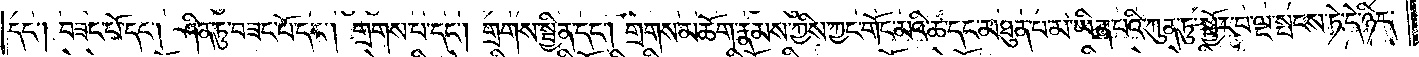དང༌། བཟང་པོ་དང༌། ཤིན་ཏུ་བཟང་པོ་དང༌། གྲགས་པ་དང༌། གྲགས་སྦྱིན་དང༌། གྲགས་མཆོག་རྣམས་ཀྱིས་ཀྱང་གོང་མའི་ཆ་དང་མཐུན་པ་མ་ཡིན་པའི་ཀུན་ཏུ་སྦྱོར་བ་ལྔ་སྤངས་ཏེ་དེ་ཉིད་
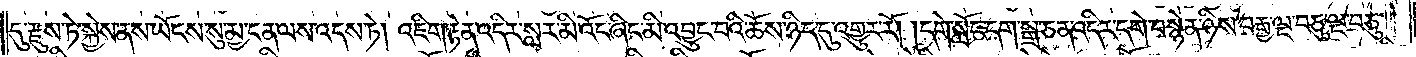དུ་རྫུས་ཏེ་སྐྱེས་ནས་ཡོངས་སུ་མྱ་ངན་ལས་འདས་ཏེ། འཇིག་རྟེན་འདིར་སླར་མི་འོང་ཞིང་མི་འབྱུང་བའི་ཆོས་ཉིད་དུ་འགྱུར་རོ། །དགེ་སློང་དག་སྒྲ་ཅན་འདིར་དགེ་བསྙེན་ཉིས་བརྒྱ་ལྔ་བཅུ་ལྔ་བཅུ་
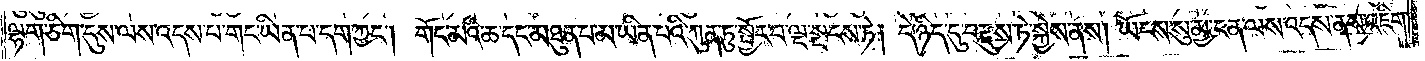ལྷག་ཅིག་དུས་ལས་འདས་པ་གང་ཡིན་པ་དག་ཀྱང༌། གོང་མའི་ཆ་དང་མཐུན་པ་མ་ཡིན་པའི་ཀུན་ཏུ་སྦྱོར་བ་ལྔ་སྤངས་ཏེ། དེ་ཉིད་དུ་བརྫུས་ཏེ་སྐྱེས་ནས། ཡོངས་སུ་མྱ་ངན་ལས་འདས་ནས་འཇིག་
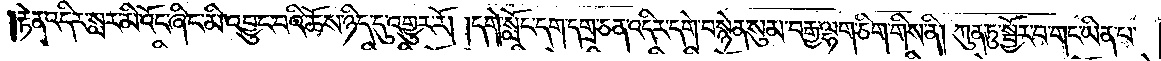རྟེན་འདིར་སླར་མི་འོང་ཞིང་མི་འབྱུང་བའི་ཆོས་ཉིད་དུ་འགྱུར་རོ། །དགེ་སློང་དག་དགྲ་ཅན་འདིར་དགེ་བསྙེན་སུམ་བརྒྱ་ལྷག་ཅིག་གིས་ནི། ཀུན་ཏུ་སྦྱོར་བ་གང་ཡིན་པ་
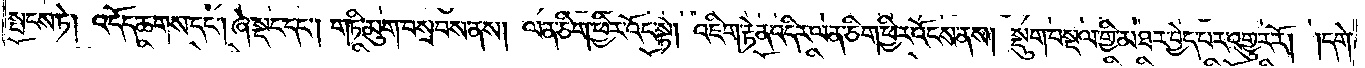སྤངས་ཏེ། འདོད་ཆགས་དང༌། ཞེ་སྡང་དང༌། གཏི་མུག་བསྲབས་ནས། ལན་ཅིག་ཕྱིར་འོང་སྟེ། འཇིག་རྟེན་འདིར་ལན་ཅིག་ཕྱིར་འོངས་ནས། སྡུག་བསྔལ་གྱི་མཐར་བྱེད་པར་འགྱུར་རོ། །དགེ་
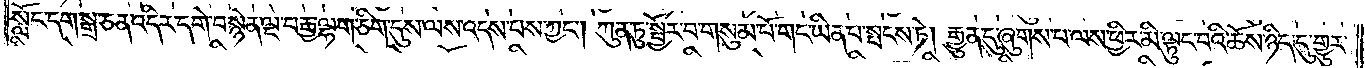སློང་དག་སྒྲ་ཅན་འདིར་དགེ་བསྙེན་ལྔ་བརྒྱ་ལྷག་ཅིག་དུས་ལས་འདས་པས་ཀྱང༌། ཀུན་ཏུ་སྦྱོར་བ་གསུམ་པོ་གང་ཡིན་པ་སྤངས་ཏེ། རྒྱུན་དུ་ཞུགས་པ་ལས་ཕྱིར་མི་ལྟུང་བའི་ཆོས་ཉིད་དུ་གྱུར་
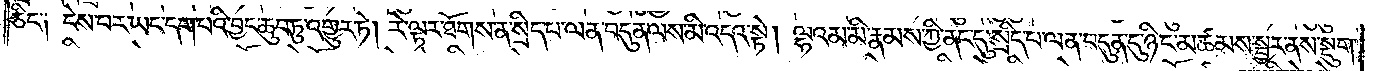ཅིང་༑ ངེས་པར་ཡང་དག་པའི་བྱང་ཆུབ་ཏུ་འགྱུར་ཏེ། རེ་ལྟར་ཐོགས་ན་སྲིད་པ་ལན་བདུན་ལས་མི་འདའ་སྟེ། ལྷའམ་མི་རྣམས་ཀྱི་ནང་དུ་སྲིད་པ་ལན་བདུན་དུ་ཉིང་མཚམས་སྦྱར་ནས་སྡུག་
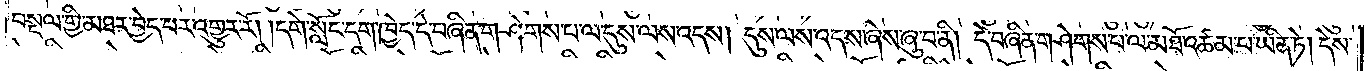བསྔལ་གྱི་མཐར་བྱེད་པར་འགྱུར་རོ། །དགེ་སློང་དག་ཁྱེད་དེ་བཞིན་གཤེགས་པ་ལ་དུས་ལས་འདས། དུས་ལས་འདས་ཞེས་ཞུ་བ་ནི། དེ་བཞིན་གཤེགས་པ་ལ་མཐོ་འཚམ་པ་ཡིན་ཏེ། དེས་
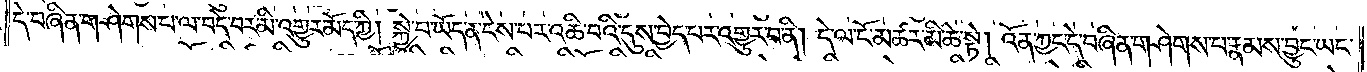དེ་བཞིན་གཤེགས་པ་ལ་བདེ་བར་མི་འགྱུར་མོད་ཀྱི། སྐྱེ་བ་ཡོད་ན་ངེས་པར་འཆི་བའི་དུས་བྱེད་པར་འགྱུར་བ་ནི། དེ་ལ་ངོ་མཚར་མི་ཆེ་སྟེ། འོན་ཀྱང་དེ་བཞིན་གཤེགས་པ་རྣམས་བྱུང་ཡང་
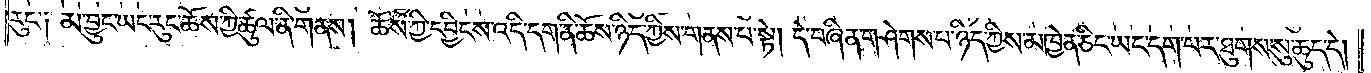རུང་༑ མ་བྱུང་ཡང་རུང་ཆོས་ཀྱི་ཚུལ་ནི་གནས། ཆོས་ཀྱི་དབྱིངས་འདི་དག་ནི་ཆོས་ཉིད་ཀྱིས་གནས་པ་སྟེ། དེ་བཞིན་གཤེགས་པ་ཉིད་ཀྱིས་མཁྱེན་ཅིང་ཡང་དག་པར་ཐུགས་སུ་ཆུད་དེ།
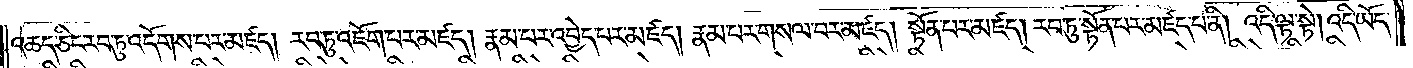འཆད་ཅིང་རབ་ཏུ་འདོགས་པར་མཛད། རབ་ཏུ་འཇོག་པར་མཛད། རྣམ་པར་འབྱེད་པར་མཛད། རྣམ་པར་གསལ་བར་མཛད། སྟོན་པར་མཛད། རབ་ཏུ་སྟོན་པར་མཛད་པ་ནི། འདི་ལྟ་སྟེ། འདི་ཡོད་
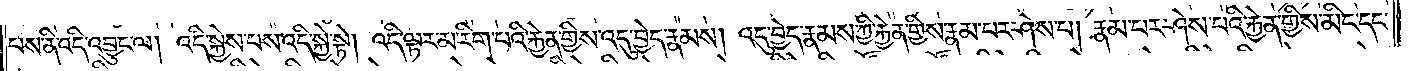པས་ནི་འདི་འབྱུང་ལ། འདི་སྐྱེས་པས་འདི་སྐྱེ་སྟེ། འདི་ལྟར་མ་རིག་པའི་རྐྱེན་གྱིས་འདུ་བྱེད་རྣམས། འདུ་བྱེད་རྣམས་ཀྱི་རྐྱེན་གྱིས་རྣམ་པར་ཤེས་པ། རྣམ་པར་ཤེས་པའི་རྐྱེན་གྱིས་མིང་དང་
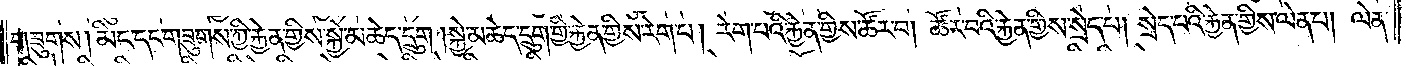གཟུགས། མིང་དང་གཟུགས་ཀྱི་རྐྱེན་གྱིས་སྐྱེ་མཆེད་དྲུག །སྐྱེ་མཆེད་དྲུག་གྱི་རྐྱེན་གྱིས་རེག་པ། རེག་པའི་རྐྱེན་གྱིས་ཚོར་བ། ཚོར་བའི་རྐྱེན་གྱིས་སྲེད་པ། སྲེད་པའི་རྐྱེན་གྱིས་ལེན་པ། ལེན་
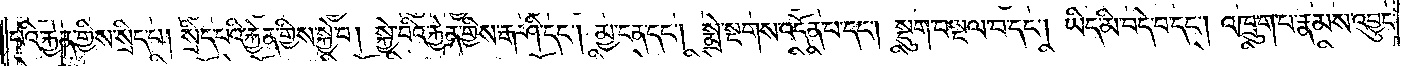པའི་རྐྱེན་གྱིས་སྲིད་པ། སྲིད་པའི་རྐྱེན་གྱིས་སྐྱེ་བ། སྐྱེ་བའི་རྐྱེན་གྱིས་རྒ་ཤི་དང༌། མྱ་ངན་དང༌། སྨྲེ་སྔགས་འདོན་པ་དང༌། སྡུག་བསྔལ་བ་དང༌། ཡིད་མི་བདེ་བ་དང༌། འཁྲུག་པ་རྣམས་འབྱུང་
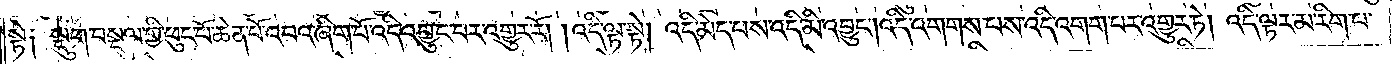སྟེ༑ སྡུག་བསྔལ་གྱི་ཕུང་པོ་ཆེན་པོ་འབའ་ཞིག་པོ་འདི་འབྱུང་བར་འགྱུར་རོ། །འདི་ལྟ་སྟེ། འདི་མེད་པས་འདི་མི་འབྱུང༌། འདི་འགགས་པས་འདི་འགགས་པར་འགྱུར་ཏེ། འདི་ལྟར་མ་རིག་པ་
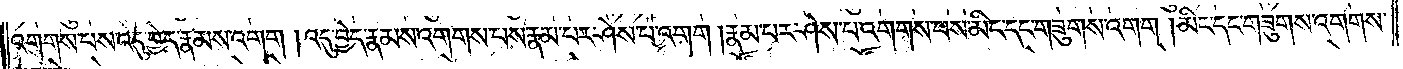འགགས་པས་འདུ་བྱེད་རྣམས་འགག །འདུ་བྱེད་རྣམས་འགགས་པས་རྣམ་པར་ཤེས་པ་འགག །རྣམ་པར་ཤེས་པ་འགགས་པས་མིང་དང་གཟུགས་འགག །མིང་དང་གཟུགས་འགགས་
